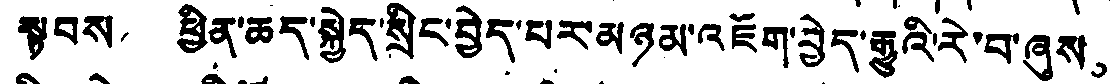སྟབས， ཕྱིན་ཆད་སྐྱེད་སྲིང་བྱེད་པར་མཉམ་འཇོག་བྱེད་རྒྱུའི་རེ་བ་ཞུས。
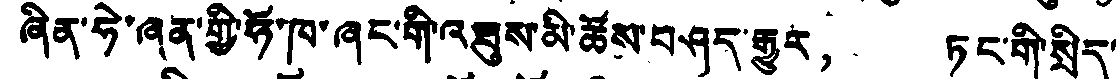ཞིན་ཧེ་ཞན་གྱི་ཧོ་ཁ་ཞང་གི་འཐུས་མི་ཚོས་བཤད་རྒྱུར， ཏང་གི་སྲིད་
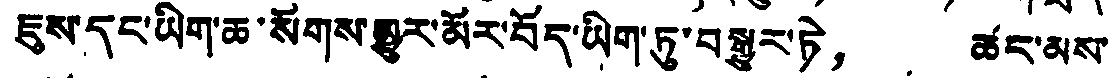ཇུས་དང་ཡིག་ཆ་སོགས་མྱུར་མོར་བོད་ཡིག་ཏུ་བསྒྱུར་ཏེ， ཚང་མས་
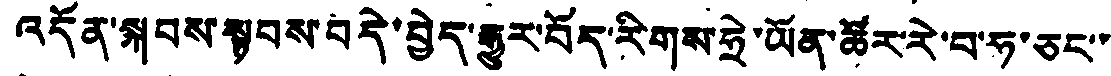འདོན་སྐབས་སྟབས་བདེ་བྱེད་རྒྱུར་བོད་རིགས་ཧྲེ་ཡོན་ཚོར་རེ་བ་ཧ་ཅང་་
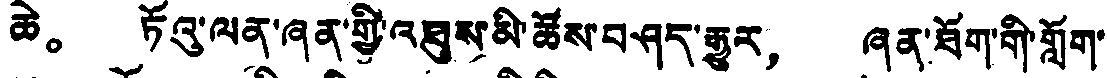ཆེ。 ཏོའུ་ལན་ཞན་གྱི་འཐུས་མི་ཚོས་བཤད་རྒྱུར， ཞན་ཐོག་གི་གློག་
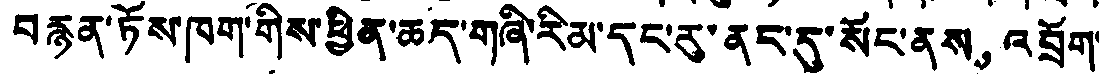བརྙན་ཏོས་ཁག་གིས་ཕྱིན་ཆད་གཞི་རིམ་དང་རུ་ནང་དུ་སོང་ནས。 འབྲོག་
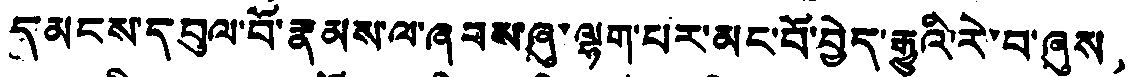དམངས་དབུལ་བོ་རྣམས་ལ་ཞབས་ཞུ་ལྷག་པར་མང་པོ་བྱེད་རྒྱུའི་རེ་བ་ཞུས。
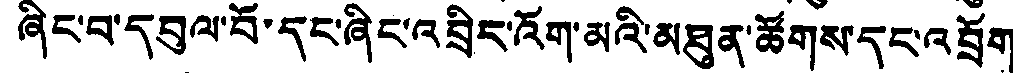ཞིང་བ་དབུལ་བོ་དང་ཞིང་འབྲིང་འོག་མའི་མཐུན་ཚོགས་དང་འབྲོག
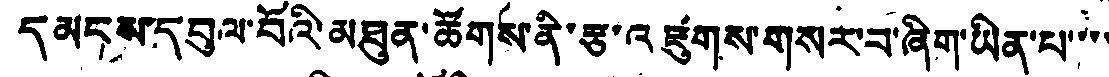དམངས་དབུལ་བོའི་མཐུན་ཚོགས་ནི་རྩ་འཛུགས་གསར་བ་ཞིག་ཡིན་པ་་་་
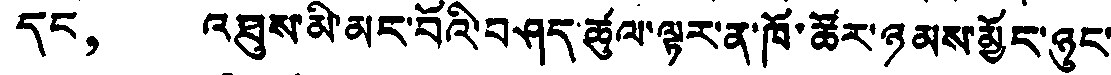དང， འཐུས་མི་མང་བོའི་བཤད་ཚུལ་ལྟར་ན་ཁོ་ཚོར་ཉམས་མྱོང་ཉུང་
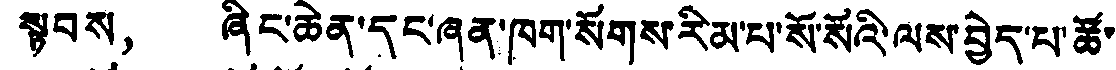སྟབས， ཞིང་ཆེན་དང་ཞན་ཁག་སོགས་རིམ་པ་སོ་སོའི་ལས་བྱེད་པ་ཚོ་
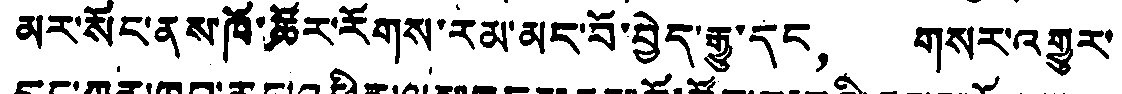མར་སོང་ནས་ཁོ་ཚོར་རོགས་རམ་མང་པོ་བྱེད་རྒྱུ་དང， གསར་འགྱུར་
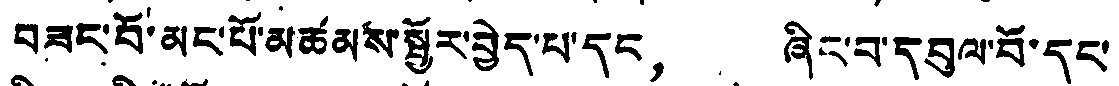བཟང་པོ་མང་པོ་མཚམས་སྦྱོར་བྱེད་པ་དང， ཞིང་བ་དབུལ་བོ་དང་
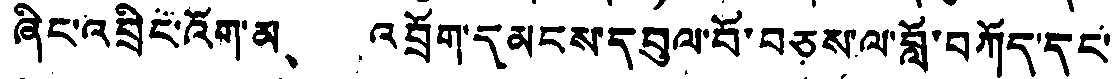ཞིང་འབྲིང་འོག་མ、 འབྲོག་དམངས་དབུལ་བོ་བཅས་ལ་བློ་བཀོད་དང་
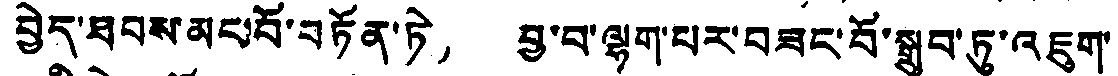བྱེད་ཐབས་མང་པོ་བཏོན་ཏེ， བྱ་བ་ལྷག་པར་བཟང་པོ་སྒྲུབ་ཏུ་འཇུག་
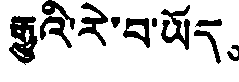རྒྱུའི་རེ་བ་ཡོད。
